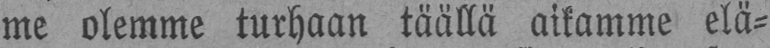me olemme turhaan täällä aikamme elä-
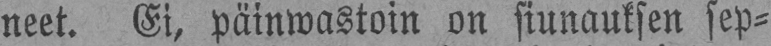neet. Ei, päinwastoin on siunauksen sep-
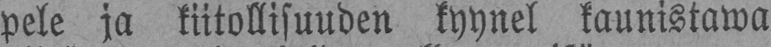pele ja kiitollisuuden kyynel kaunistawa
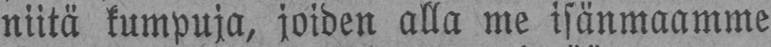niitä kumpuja, joiden alla me isänmaamme
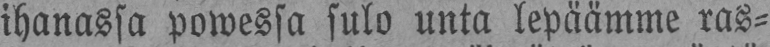ihanassa powessa sulo unta lepäämme ras-
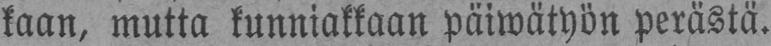kaan, mutta kunniakkaan päiwätyön perästä.
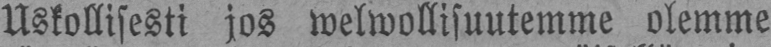Uskollisesti jos welwollisuutemme olemme
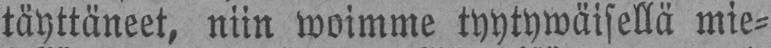täyttäneet, niin woimme tyytywäisellä mie-
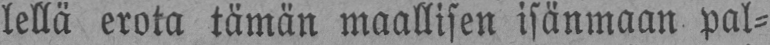lellä erota tämän maallisen isänmaan pal-
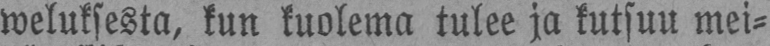weluksesta, kun kuolema tulee ja kutsuu mei-
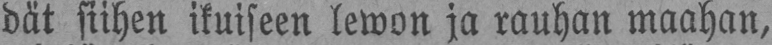dät siihen ikuiseen lewon ja rauhan maahan,
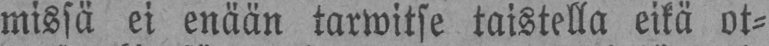missä ei enään tarwitse taistella eikä ot-
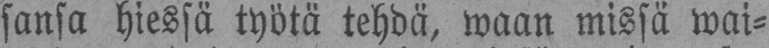sansa hiessä työtä tehdä, waan missä wai-
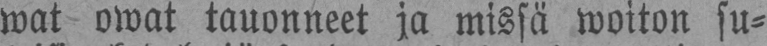wat owat tauonneet ja missä woiton su-
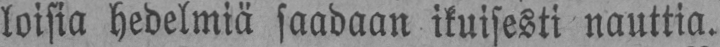loisia hedelmiä saadaan ikuisesti nauttia.
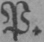P.
